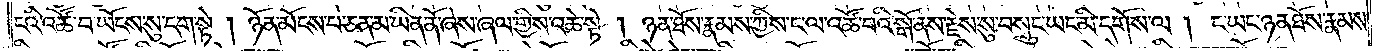ངའི་འཚོ་བ་ཡོངས་སུ་དག་སྟེ། ཉོན་མོངས་པ་ཅན་མ་ཡིན་ནོ་ཞེས་ཞལ་གྱིས་འཆེ་སྟེ། ཉན་ཐོས་རྣམས་ཀྱིས་ང་ལ་འཚོ་བའི་སྒོ་ནས་རྗེས་སུ་བསྲུང་ཡང་མི་དགོས་ལ། ང་ཡང་ཉན་ཐོས་རྣམས་
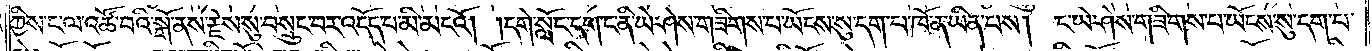ཀྱིས་ང་ལ་འཚོ་བའི་སྒོ་ནས་རྗེས་སུ་བསྲུང་བར་འདོད་པ་མི་མངའོ། །དགེ་སློང་དག་ང་ནི་ཡེ་ཤེས་གཟིགས་པ་ཡོངས་སུ་དག་པ་ཁོ་ན་ཡིན་པས། ང་ཡེ་ཤེས་གཟིགས་པ་ཡོངས་སུ་དག་པ་
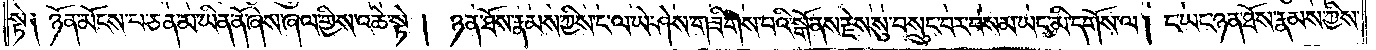སྟེ༑ ཉོན་མོངས་པ་ཅན་མ་ཡིན་ནོ་ཞེས་ཞལ་གྱིས་འཆེ་སྟེ། ཉན་ཐོས་རྣམས་ཀྱིས་ང་ལ་ཡེ་ཤེས་གཟིགས་པའི་སྒོ་ནས་རྗེས་སུ་བསྲུང་བར་བསམ་ཡང་མི་དགོས་ལ། ང་ཡང་ཉན་ཐོས་རྣམས་ཀྱིས་
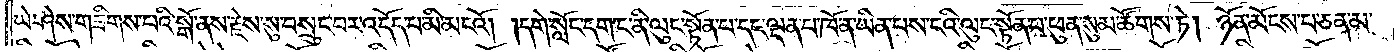ཡེ་ཤེས་གཟིགས་པའི་སྒོ་ནས་རྗེས་སུ་བསྲུང་བར་འདོད་པ་མི་མངའོ། །དགེ་སློང་དག་ང་ནི་ལུང་སྟོན་པ་དང་ལྡན་པ་ཁོ་ན་ཡིན་པས་ངའི་ལུང་སྟོན་པ་ཕུན་སུམ་ཚོགས་ཏེ། ཉོན་མོངས་པ་ཅན་མ་
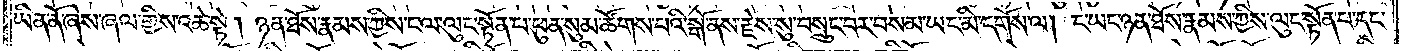ཡིན་ནོ་ཞེས་ཞལ་གྱིས་འཆེ་སྟེ། ཉན་ཐོས་རྣམས་ཀྱིས་ང་ལ་ལུང་སྟོན་པ་ཕུན་སུམ་ཚོགས་པའི་སྒོ་ནས་རྗེས་སུ་བསྲུང་བར་བསམ་ཡང་མི་དགོས་ལ། ང་ཡང་ཉན་ཐོས་རྣམས་ཀྱིས་ལུང་སྟོན་པ་དང་
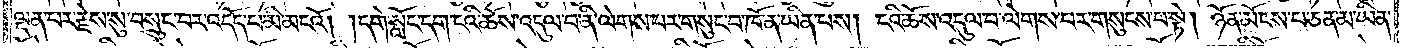ལྡན་པར་རྗེས་སུ་བསྲུང་བར་འདོད་པ་མི་མངའོ། །དགེ་སློང་དག་ངའི་ཆོས་འདུལ་བ་ནི་ལེགས་པར་གསུང་བ་ཁོ་ན་ཡིན་པས། ངའི་ཆོས་འདུལ་བ་ལེགས་པར་གསུངས་པ་སྟེ། ཉོན་མོངས་པ་ཅན་མ་ཡིན་
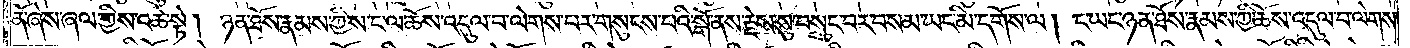ནོ་ཞེས་ཞལ་གྱིས་འཆེ་སྟེ། ཉན་ཐོས་རྣམས་ཀྱིས་ང་ལ་ཆོས་འདུལ་བ་ལེགས་པར་གསུངས་པའི་སྒོ་ནས་རྗེས་སུ་བསྲུང་བར་བསམ་ཡང་མི་དགོས་ལ། ང་ཡང་ཉན་ཐོས་རྣམས་ཀྱི་ཆོས་འདུལ་བ་ལེགས་
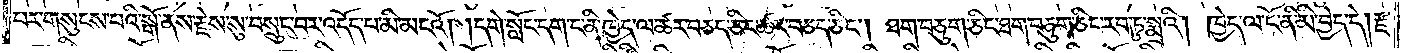པར་གསུངས་པའི་སྒོ་ནས་རྗེས་སུ་བསྲུང་བར་འདོད་པ་མི་མངའོ། །དགེ་སློང་དག་ང་ནི་ཁྱེད་ལ་ཚར་བཅད་ཅིང་ཚར་བཅད་ཅིང༌། ཐག་བཅུག་ཅིང་ཐག་བཅུག་ཅིང་རབ་ཏུ་སྨྲའི། ཁྱེད་ལ་ངོ་ནི་མི་བྱེད་དེ། རྫ་
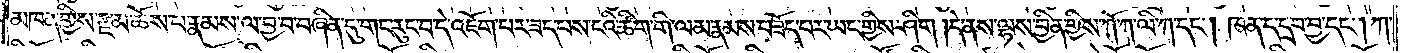མཁན་གྱིས་རྫ་མ་ཆོས་པ་རྣམས་ལ་བྱ་བ་བཞིན་དུ་གང་རུང་བ་དེ་འཇོག་པར་ཟད་པས་ངའི་ཚིག་གི་ལམ་རྣམས་བཟོད་པར་ཡང་གྱིས་ཤིག །དེ་ནས་ལྷས་བྱིན་གྱིས་ཀོ་ཀ་ལི་ཀ་དང༌། ཁན་ད་དྲབ་བྱ་དང༌། ཀ་
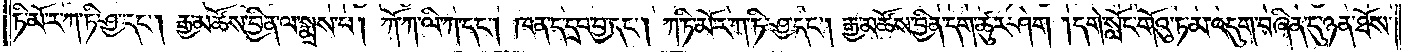ཏི་མོ་ར་ཀ་ཏི་ཤྱ་དང༌། རྒྱ་མཚོས་བྱིན་ལ་སྨྲས་པ། ཀོ་ཀ་ལི་དང༌། ཁན་ད་དྲབ་བྱ་དང༌། ཀ་ཏི་མོ་ར་ཀ་ཏི་ཤྱ་དང༌། རྒྱ་མཚོས་བྱིན་དག་ཚུར་ཤེག །དགེ་སློང་གོའུ་ཏ་མ་འདུག་བཞིན་དུ་ཉན་ཐོས་
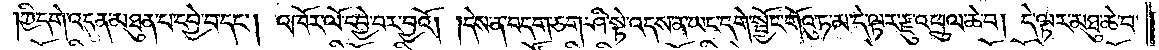ཀྱི་དགེ་འདུན་མཐུན་པ་དབྱེ་བ་དང༌། འཁོར་ལོ་དབྱེ་བར་བྱའོ། །དེས་ན་བདག་ཅག་ཤི་སྟེ་འདས་ན་ཡང་དགེ་སྦྱོང་གོའུ་ཏ་མ་དེ་ལྟར་རྫུ་འཕྲུལ་ཆེ་བ། དེ་ལྟར་མཐུ་ཆེ་བ་
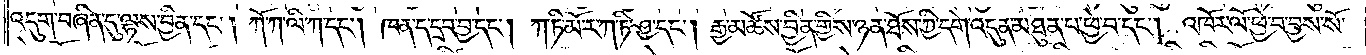འདུག་བཞིན་དུ་ལྷས་བྱིན་དང༌། ཀོ་ཀ་ལི་ཀ་དང༌། ཁན་ད་དྲབ་བྱ་དང༌། ཀ་ཏི་མོ་ར་ཀ་ཏི་ཤྱ་དང༌། རྒྱ་མཚོས་བྱིན་གྱིས་ཉན་ཐོས་ཀྱི་དགེ་འདུན་མཐུན་པ་ཕྱེ་བ་དང༌། འཁོར་ལོ་ཕྱེ་བ་བྱས་སོ་
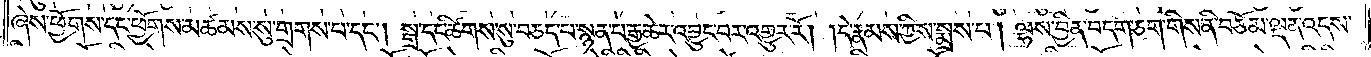ཞེས་ཕྱོགས་དང་ཕྱོགས་མཚམས་སུ་གྲགས་པ་དང༌། སྒྲ་དང་ཚིགས་སུ་བཅད་པ་སྙན་པ་རྒྱ་ཆེར་འབྱུང་བར་འགྱུར་རོ། །དེ་རྣམས་ཀྱིས་སྨྲས་པ། ལྷས་བྱིན་བདག་ཅག་གིས་ནི་བཅོམ་ལྡན་འདས་
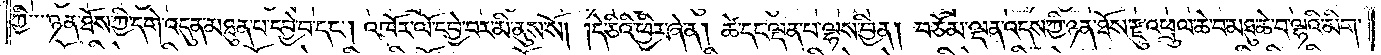ཀྱི་ཉན་ཐོས་ཀྱི་དགེ་འདུན་མཐུན་པ་དབྱེ་བ་དང༌། འཁོར་ལོ་དབྱེ་བར་མི་ནུས་སོ། །དེ་ཅིའི་ཕྱིར་ཞེ་ན། ཚེ་དང་ལྡན་པ་ལྷས་བྱིན། བཅོམ་ལྡན་འདས་ཀྱི་ཉན་ཐོས་རྫུ་འཕྲུལ་ཆེ་བ་མཐུ་ཆེ་བ་ལྷའི་མིག་
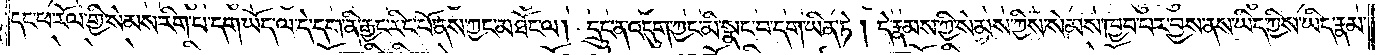དང་ཕ་རོལ་གྱི་སེམས་རིག་པ་དག་ཡོད་ལ་དེ་དག་ནི་རྒྱང་རིང་པོ་ནས་ཀྱང་མཐོང་ལ། དྲུང་ན་འདུག་ཀྱང་མི་སྣང་བ་དག་ཡིན་ཏེ། དེ་རྣམས་ཀྱི་སེམས་ཀྱིས་སེམས་ཁྱབ་པར་བྱས་ནས་ཡིད་ཀྱིས་ཡིད་རྣམ་
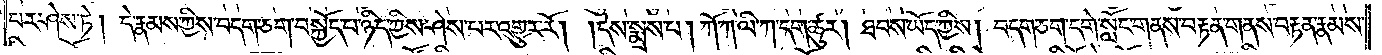པར་ཤེས་ཏེ། དེ་རྣམས་ཀྱིས་བདག་ཅག་བསྐྱོད་པ་ཉིད་ཀྱིས་ཤེས་པར་འགྱུར་རོ། །དེས་སྨྲས་པ། ཀོ་ཀ་ལི་ཀ་དག་ཚུར། ཐབས་ཡོད་ཀྱིས། བདག་ཅག་དགེ་སློང་གནས་བརྟན་གནས་བརྟན་རྣམས་
